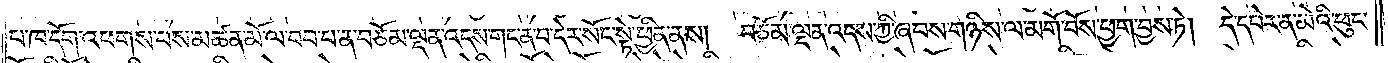པ་ཁ་དོག་འཕགས་པས་མཚན་མོ་ལ་བབ་པ་ན་བཅོམ་ལྡན་འདས་གང་ན་བ་དེར་སོང་སྟེ་ཕྱིན་ནས། བཅོམ་ལྡན་འདས་ཀྱི་ཞབས་གཉིས་ལ་མགོ་བོས་ཕྱག་བྱས་ཏེ། དེ་དཔེར་ན་མེའི་ཕུང་
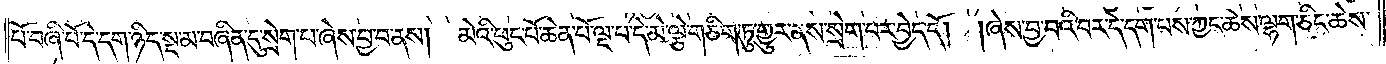པོ་བཞི་པོ་དེ་དག་ཉིད་སྔ་མ་བཞིན་དུ་སྲེག་པ་ཞེས་བྱ་བ་ནས། མེའི་ཕུང་པོ་ཆེན་པོ་ལྔ་པ་དེ་མེ་ལྕེ་གཅིག་ཏུ་གྱུར་ནས་སྲེག་པར་བྱེད་དོ། །ཞེས་བྱ་བའི་བར་དེ་དག་པས་ཀྱང་ཆེས་ལྷག་ཅིང་ཆེས་
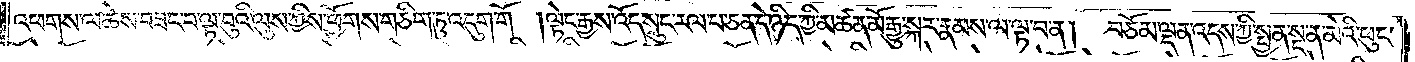འཕགས་ལ་ཆེས་བཟང་བ་ལྟ་བུའི་ལུས་ཀྱིས་ཕྱོགས་གཅིག་ཏུ་འདུག་གོ །ལྟེང་རྒྱས་འོད་སྲུང་རལ་པ་ཅན་དེ་ཉིད་ཀྱི་མཚན་མོ་རྒྱུ་སྐར་རྣམས་ལ་ལྟ་བ་ན། བཅོམ་ལྡན་འདས་ཀྱི་སྤྱན་སྔ་ན་མེའི་ཕུང་
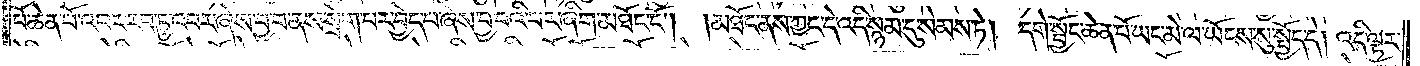པོ་ཆེན་པོ་འབར་རབ་ཏུ་འབར་ཞེས་བྱ་བ་ནས་སྲེག་པར་བྱེད་པ་ཞེས་བྱ་བའི་བར་ཞིག་མཐོང་ངོ༌། །མཐོང་ནས་ཀྱང་དེ་འདི་སྙམ་དུ་སེམས་ཏེ། དགེ་སྦྱོང་ཆེན་པོ་ཡང་མེ་ལ་ཡོངས་སུ་སྤྱོད་དེ། འདི་ལྟར་
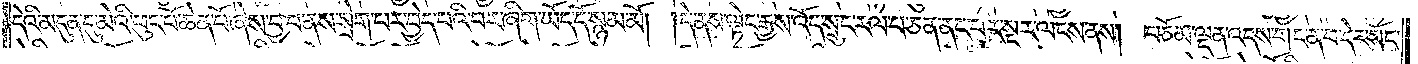དེའི་མདུན་དུ་མེའི་ཕུང་པོ་ཆེན་པོ་ཞེས་བྱ་བ་ནས་སྲེག་པར་བྱེད་པའི་བར་ཞིག་ཡོད་དོ་སྙམ་མོ། །དེ་ནས་ལྟེང་རྒྱས་འོད་སྲུང་རལ་པ་ཅན་ནང་པར་སྔར་ལངས་ནས། བཅོམ་ལྡན་འདས་གང་ན་བ་དེར་སོང་
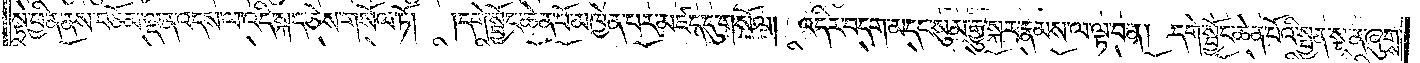སྟེ་ཕྱིན་ནས་བཅོམ་ལྡན་འདས་ལ་འདི་སྐད་ཅེས་གསོལ་ཏོ།  །དགེ་སྦྱོང་ཆེན་པོ་མཁྱེན་པར་མཛད་དུ་གསོལ། འདིར་བདག་མདང་སུམ་རྒྱུ་སྐར་རྣམས་ལ་ལྟ་བ་ན། དགེ་སྦྱོང་ཆེན་པོའི་སྤྱན་སྔ་ན་ཞུགས་
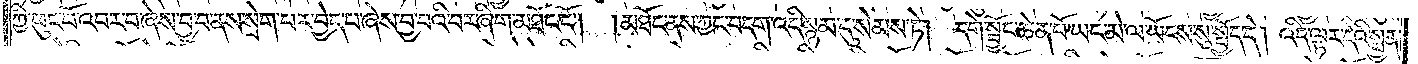ཀྱི་ཕུང་པོ་འབར་བ་ཞེས་བྱ་བ་ནས་སྲེག་པར་བྱེད་པ་ཞེས་བྱ་བའི་བར་ཞིག་མཐོང་ངོ༌། །མཐོང་ནས་ཀྱང་བདག་འདི་སྙམ་དུ་སེམས་ཏེ། དགེ་སྦྱོང་ཆེན་པོ་ཡང་མེ་ལ་ཡོངས་སུ་སྤྱོད་དེ། འདི་ལྟར་དེའི་སྤྱན་
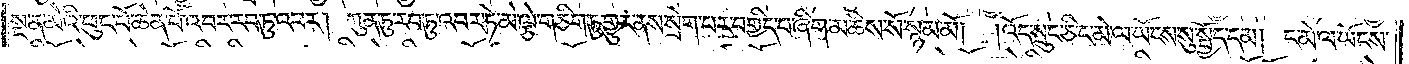སྔ་ན་མེའི་ཕུང་པོ་ཆེན་པོ་འབར་རབ་ཏུ་འབར། ཀུན་ཏུ་རབ་ཏུ་འབར་ཏེ་མེ་ལྕེ་གཅིག་ཏུ་གྱུར་ནས་སྲེག་པར་བགྱིད་པ་ཞིག་མཆིས་སོ་སྙམ་མོ། །འོད་སྲུང་ཅིང་མེ་ལ་ཡོངས་སུ་སྤྱོད་དམ། ང་མེ་ལ་ཡོངས་
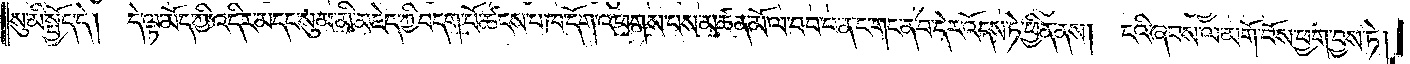སུ་མི་སྤྱོད་དེ། དེ་ལྟ་མོད་ཀྱི་འདིར་མདང་སུམ་མི་མཇེད་ཀྱི་བདག་པོ་ཚངས་པ་ཁ་དོག་འཕགས་པས་མཚན་མོ་ལ་བབ་པ་ན་ང་གང་ན་བ་དེར་འོངས་ཏེ་ཕྱིན་ནས། ངའི་ཞབས་ལ་མགོ་བོས་ཕྱག་བྱས་ཏེ།
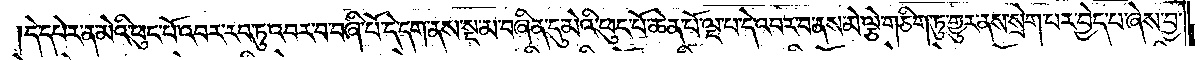དེ་དཔེར་ན་མེའི་ཕུང་པོ་འབར་རབ་ཏུ་འབར་བ་བཞི་པོ་དེ་དག་ནས་སྔ་མ་བཞིན་དུ་མེའི་ཕུང་པོ་ཆེན་པོ་ལྔ་པ་དེ་འབར་བ་ནས་མེ་ལྕེ་གཅིག་ཏུ་གྱུར་ནས་སྲེག་པར་བྱེད་པ་ཞེས་བྱ་
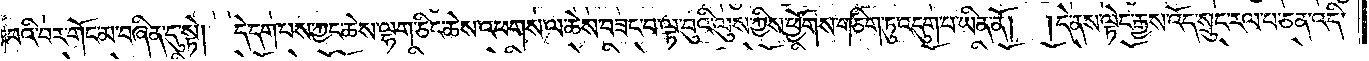བའི་བར་གོང་མ་བཞིན་དུ་སྟེ། དེ་དག་པས་ཀྱང་ཆེས་ལྷག་ཅིང་ཆེས་འཕགས་ལ་ཆེས་བཟང་བ་ལྟ་བུའི་ལུས་ཀྱིས་ཕྱོགས་གཅིག་ཏུ་འདུག་པ་ཡིན་ནོ། །དེ་ནས་ལྟེང་རྒྱས་འོད་སྲུང་རལ་པ་ཅན་འདི་
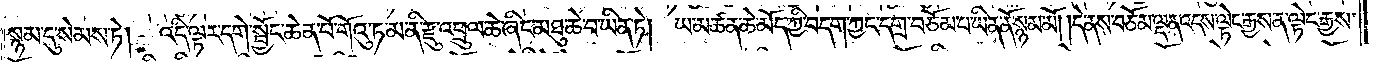སྙམ་དུ་སེམས་ཏེ། འདི་ལྟར་དགེ་སྦྱོང་ཆེན་པོ་གོའུ་ཏ་མ་ནི་རྫུ་འཕྲུལ་ཆེ་ཞིང་མཐུ་ཆེ་བ་ཡིན་ཏེ། ཡ་མཚན་ཆེ་མོད་ཀྱི་བདག་ཀྱང་དགྲ་བཅོམ་པ་ཡིན་ནོ་སྙམ་མོ། །དེ་ནས་བཅོམ་ལྡན་འདས་ལྟེང་རྒྱས་ན་ལྟེང་རྒྱས་
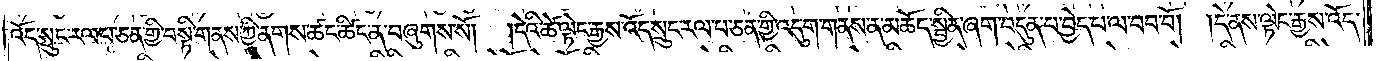འོད་སྲུང་རལ་པ་ཅན་གྱི་བསྟི་གནས་ཀྱི་ནགས་ཚང་ཚིང་ན་བཞུགས་སོ།  །དེའི་ཚེ་ལྟེང་རྒྱས་འོད་སྲུང་རལ་པ་ཅན་གྱི་འདུག་གནས་ན་མཆོད་སྦྱིན་ཞག་བདུན་པ་བྱེད་པ་ལ་བབ་བོ། །དེ་ནས་ལྟེང་རྒྱས་འོད་
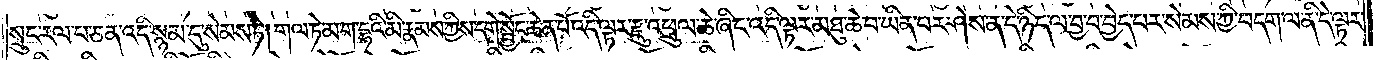སྲུང་རལ་པ་ཅན་འདི་སྙམ་དུ་སེམས་ཏེ། གལ་ཏེ་མ་ག་དྷའི་མི་རྣམས་ཀྱིས་དགེ་སྦྱོང་ཆེན་པོ་འདི་ལྟར་རྫུ་འཕྲུལ་ཆེ་ཞིང་འདི་ལྟར་མཐུ་ཆེ་བ་ཡིན་པར་ཤེས་ན་དེ་ཉིད་ལ་བྱ་བ་བྱེད་པར་སེམས་ཀྱི་བདག་ལ་ནི་དེ་ལྟར་
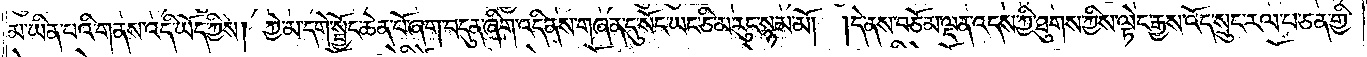མ་ཡིན་པའི་གནས་འདི་ཡོད་ཀྱིས། ཀྱེ་མ་དགེ་སྦྱོང་ཆེན་པོ་ཞག་བདུན་ཞིག་འདི་ནས་གཞན་དུ་སོང་ཡང་ཅི་མ་རུང་སྙམ་མོ། །དེ་ནས་བཅོམ་ལྡན་འདས་ཀྱི་ཐུགས་ཀྱིས་ལྟེང་རྒྱས་འོད་སྲུང་རལ་པ་ཅན་གྱི་
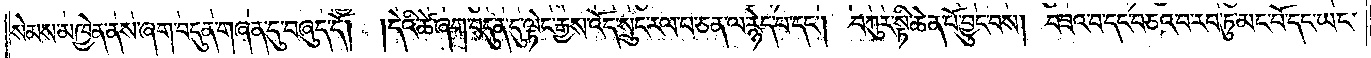སེམས་མཁྱེན་ནས་ཞག་བདུན་གཞན་དུ་བཞུད་དོ། །དེའི་ཚེ་ཞག་བདུན་དུ་ལྟེང་རྒྱས་འོད་སྲུང་རལ་པ་ཅན་ལ་རྙེད་པ་དང༌། བཀུར་སྟི་ཆེན་པོ་བྱུང་བས། བཟའ་བ་དང་བཅའ་བ་རབ་ཏུ་མང་པོ་དང་ཡང་
